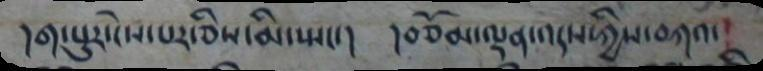།ག་པུར་ངེས་པར་ཅིས་མི་སྤང་། །བཅོམ་ལྡན་འདས་ཀྱིས་བཀའ་
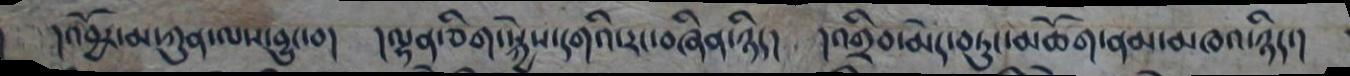།འབྱོར་མ་ཀུན་ལས་བྱུང་བ། །ལྷན་ཅིག་སྐྱེས་དགའི་རང་བཞིན་ཉིད། །འགྲིབ་མེད་བཏུང་མཆོག་ནམ་མཁའ་ཉིད་།
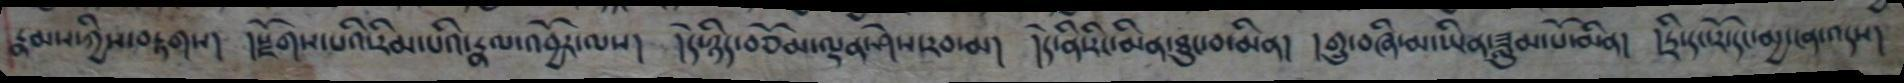རྣམས་ཀྱིས་བརྟགས། །སྫོགས་པའི་རིམ་པའི་རྣལ་འབྱོར་ལས། །དེ་ཉིད་བཅོམ་ལྡན་ཤེས་རབ་མ། །དེ་ནི་རིང་མིན་ཐུང་བ་མིན། །གྲུ་བཞི་མ་ཡིན་ཟླུམ་པོ་མིན། །དྲི་དང་རོ་དང་མྱ་ངན་འདས།
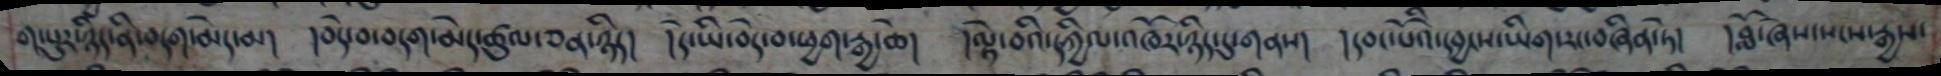གཡུར་ཉིད་ནི་བདག་མེད་མ། །བདེ་བ་བདག་མེད་ཚུལ་ཅན་ཉིད། །དེ་ཡི་བདེ་བ་ཕྱག་རྒྱ་ཆེ། །ལྟེ་བའི་དཀྱིལ་འཁོར་ཉིད་དུ་གནས། །དབང་པོའི་དབྱངས་ཡིག་རང་བཞིན་ཏེ། །བློ་ཞེས་སངས་རྒྱས་
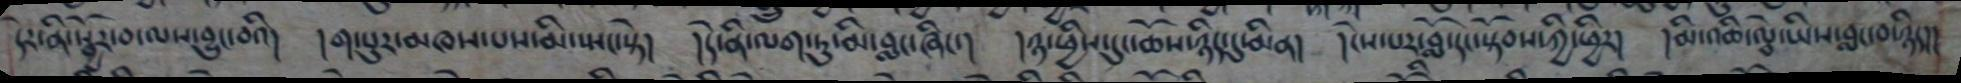དེར་ནི་སྦྱོར་བ་ལས་བྱུང་བའི། །གཡུར་མཁས་པས་མི་སྤང་སྟེ། །དེ་ནི་ལག་ཏུ་མི་བླང་ཞིང་། །ཉ་ཕྱིས་དུང་ཆོས་ཉིད་དུ་མིན། །ངེས་པར་བློ་དང་སྟོབས་ཀྱི་ཕྱིར། །མི་འཆི་ལྕེ་ཡིས་བླང་བ་ཉིད།།
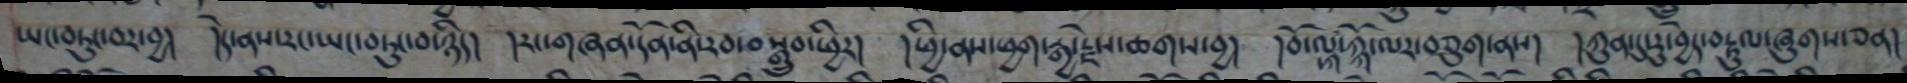ཡང་བཏུང་བར་བྱ། །དེ་ནས་རང་ཡང་བཏུང་བ་ཉིད། །རང་གཞན་དོན་ནི་རབ་བསྒྲུབ་ཕྱིར། །ཕྱི་ནས་ཕྱག་རྒྱ་རྗེས་ཆགས་བྱ། །བོ་ལྐ་ཀྐོ་ལར་བཅུག་ནས། །ཀུན་དུ་རུ་བྱེད་བརྟུལ་ཞུགས་ཅན།
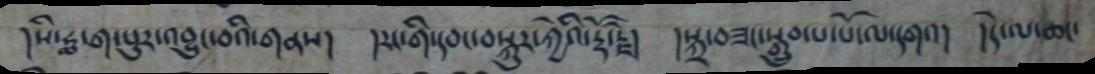།སི་ཧྨ་ག་པུར་འབྱུང་བའི་གནས། །རང་གི་དབང་བསྐུར་ཀྱེའི་རྡོ་རྗེ། །སྐྲ་བཟང་སྒྲུབ་པ་པོ་ལ་དགའ། །དེ་ལ་ཆང་
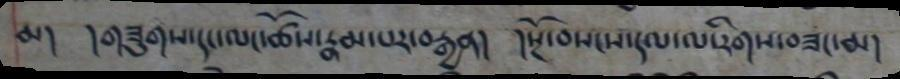མ། །གཟུགས་དང་ལང་ཚོས་རྣམ་པར་བརྒྱན། །སྔོ་བསངས་དལ་ལ་རིགས་བཟང་མ།
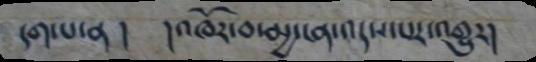དག་པ་ན ། །འཁོར་བ་མྱ་ངན་འདས་པར་འགྱུར།
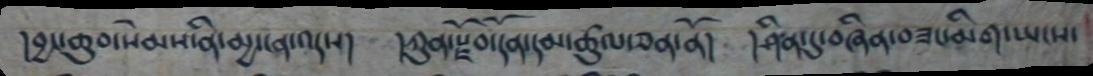།བྱང་ཆུབ་སེམས་ནི་མྱ་ངན་འདས། །ཀུན་སྫོབ་དོན་དམ་ཚུལ་ཅན་ནོ། །ཤིན་དུ་བཞིན་བཟང་མིག་ཡངས་
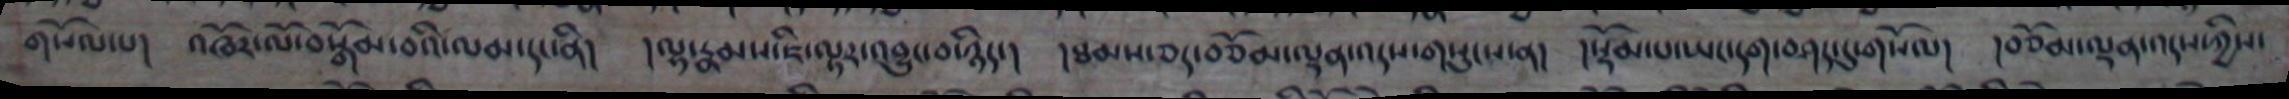གསོལ་པ། །ཁོར་ལོ་བསྒོམ་བའི་ལམ་དང་ནི། །ལྷ་རྣམས་ཇི་ལྟར་འབྱུང་བ་ཉིད་། །ཐམས་ཅད་བཅོམ་ལྡན་འདས་གསུངས་ན། །སྡོམ་པ་ཡང་དག་བཤད་དུ་གསོལ། །བཅོམ་ལྡན་འདས་ཀྱིས་
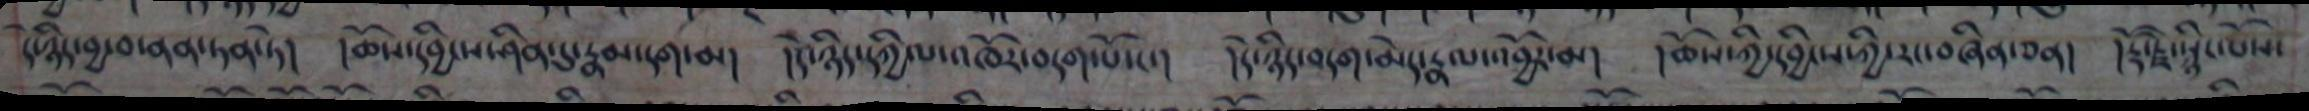དེ་ཉིད་བྱ་བ་ནན་ཏན་ཏེ། །ཆོས་དབྱིངས་ཤིན་དུ་རྣམ་དག་མ། །དེ་ཉིད་དཀྱིལ་འཁོར་བདག་པོ་ང་། །དེ་ཉིད་བདག་མེད་རྣལ་འབྱོར་མ། །ཆོས་ཀྱི་དབྱིངས་ཀྱི་རང་བཞིན་ཅན། །རྡོ་རྗེ་སྙིང་པོས་
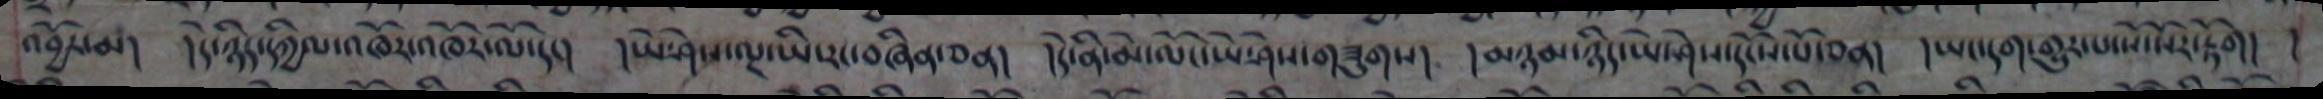འབྱོར་མ། །དེ་ཉིད་དཀྱིལ་འཁོར་འཁོར་ལོ་དང་། །ཡེ་ཤེས་ལྔ་ཡི་རང་བཞིན་ཅན། །དེ་ནི་མེ་ལོང་ཡེ་ཤེས་གཟུགས། །མཉམ་ཉིད་ཡེ་ཤེས་དངོས་པོ་ཅན། །ཡང་དག་གྱུར་པ་སོ་སོར་རྟོག། །
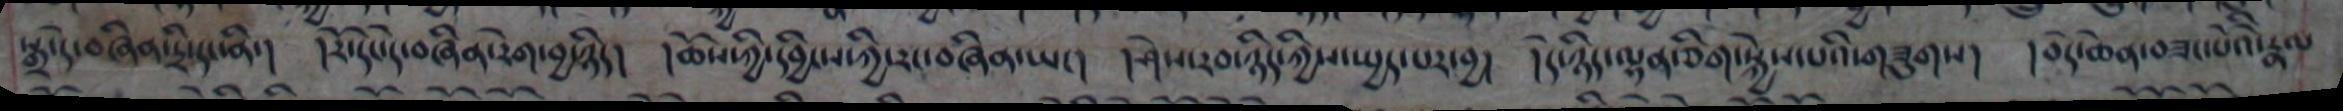སྒྲ་དེ་བཞིན་དྲི་དང་ནི་། །རོ་དང་དེ་བཞིན་རེག་བྱ་ཉིད། །ཆོས་ཀྱིདབྱིངས་ཀྱི་རང་བཞིན་ཡང། །ཤེས་རབ་ཉིད་ཀྱིས་སྤྱད་པར་བྱ། །དེ་ཉིད་ལྷན་ཅིག་སྐྱེས་པའི་གཟུགས། །བདེ་ཆེན་བཟང་པོའི་རྣལ
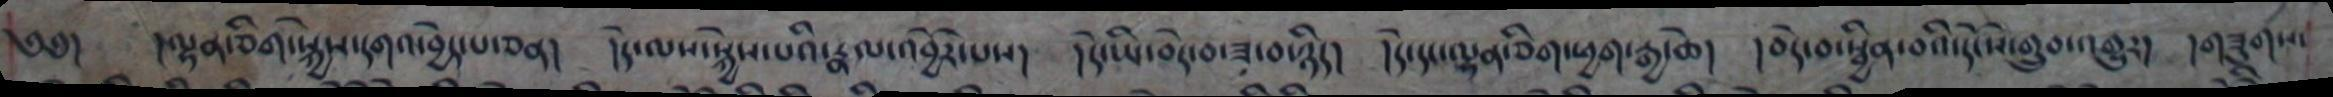༄༅། །ལྷན་ཅིག་སྐྱེས་དགའ་བྱེད་པ་ཅན། །དེ་ལས་སྐྱེས་པའི་རྣལ་འབྱོར་པས། །དེ་ཡི་བདེ་བ་ཟ་བ་ཉིད། །དེ་དང་ལྷན་ཅིག་ཕྱག་རྒྱ་ཆེ། །བདེ་བ་སྦྱིན་བའི་དངོས་གྲུབ་འགྱུར། །གཟུགས་
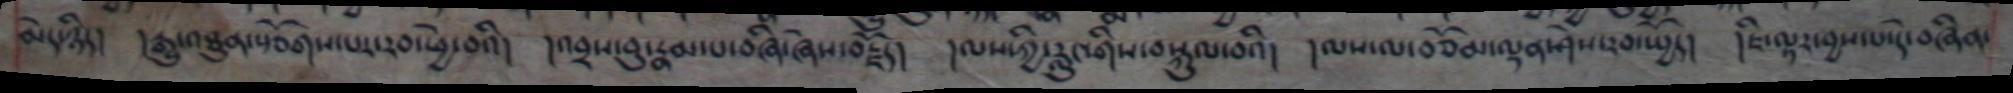མེད་ཉིད། །རྒྱུ་འཐུན་སྩོགས་པར་རབ་ཕྱེ་བའི། །འབྲས་བུ་རྣམ་པ་བཞི་ཞེས་བརྗོད། །ལས་ཀྱི་རླུང་གིས་བསྐུལ་བའི། །ལས་ལ་བཅོམ་ལྡན་ཤེས་རབ་སྤྱོད། །ཇི་ལྟར་བྱས་པ་དེ་བཞིན་
